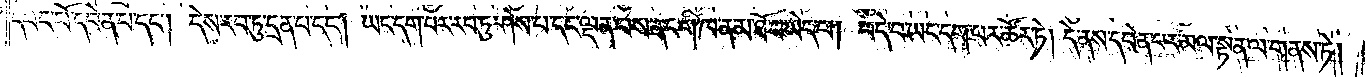དབང་པོ་དབེན་པ་དང༌། དེས་རབ་ཏུ་དྲན་པ་དང༌། ཡང་དག་པར་རབ་ཏུ་ཤེས་པ་དང་ལྡན་པས་ནང་གི་ཁ་ན་མ་ཐོ་བ་མེད་པ། བདེ་བ་ཡང་དག་པར་ཚོར་ཏེ། དེ་ནས་དབེན་པར་མལ་སྟན་ལ་གནས་ཏེ་
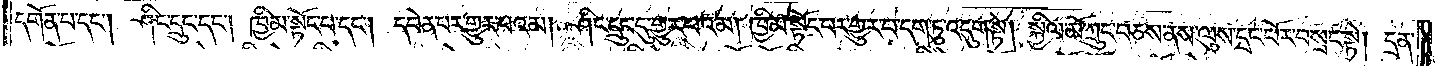དགོན་པ་དང༌། ཤིང་དྲུང་དང༌། ཁྱིམ་སྟོང་པ་དང༌། དབེན་པར་གྱུར་པའམ། ཤིང་དྲུང་དུ་གྱུར་པའམ། ཁྱིམ་སྟོང་པར་གྱུར་པ་དག་ཏུ་འདུག་སྟེ། སྐྱིལ་མོ་ཀྲུང་བཅས་ནས་ལུས་དྲང་པོར་བསྲང་སྟེ། དྲན་
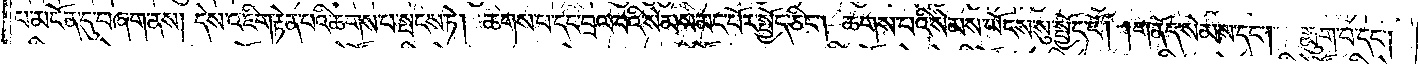པ་མངོན་དུ་བཞག་ནས། དེས་འཇིག་རྟེན་པའི་ཆགས་པ་སྤངས་ཏེ། ཆགས་པ་དང་བྲལ་བའི་སེམས་མང་པོར་སྤྱོད་ཅིང༌། ཆགས་པའི་སེམས་ཡོངས་སུ་སྤྱོད་དོ། །གནོད་སེམས་དང༌། རྨུག་པ་དང༌།
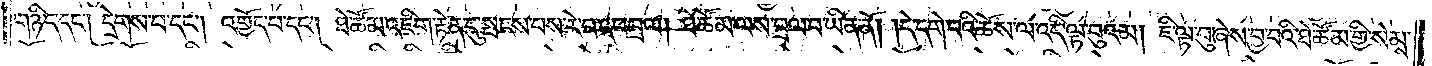གཉིད་དང༌། དྲེགས་པ་དང༌། འགྱོད་པ་དང༌། ཐེ་ཚོམ་འཇིག་རྟེན་དུ་སྤངས་པས་རེ་བ་དང་བྲལ། ཐེ་ཚོམ་ལས་བྲལ་བ་ཡིན་ནོ། །དེ་དགེ་བའི་ཆོས་ལ་འདི་ལྟ་བུའམ། ཇི་ལྟ་བུ་ཞེས་བྱ་བའི་ཐེ་ཚོམ་གྱི་སེམས་
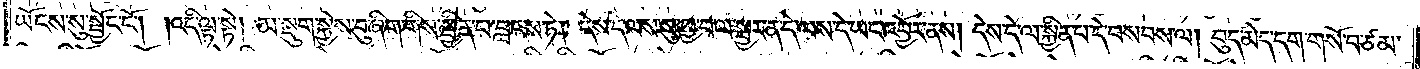ཡོངས་སུ་སྦྱོང་ངོ༌། །འདི་ལྟ་སྟེ། མ་སྡུག་སྐྱེས་བུ་ཞིག་གིས་སྦྱིན་པ་བླངས་ཏེ། དེས་དེ་ལས་སུ་བྱ་བ་ལ་སྦྱར་ན་དེ་ལས་དེ་ཡང་འབྱོར་ནས། དེས་དེ་ལ་སྐྱིན་པ་དེ་བསབས་ལ། བུད་མེད་དག་གསོ་བ་ཙམ་
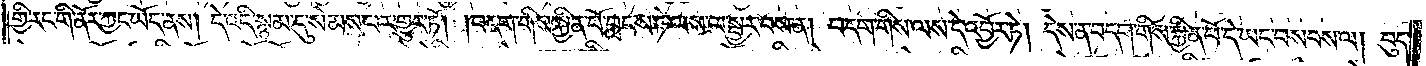གྱི་རང་གི་ནོར་ཀྱང་ཡོད་ནས། དེ་འདི་སྙམ་དུ་སེམས་པར་གྱུར་ཏོ། །བདག་གིས་སྐྱིན་པོ་བླངས་ཏེ་ལས་ལ་སྦྱར་བས་ན། བདག་གིས་ལས་དེ་འབྱོར་ཏེ། དེས་ན་བདག་གིས་སྐྱིན་པོ་དེ་ཡང་བསབས་ལ། བུད་
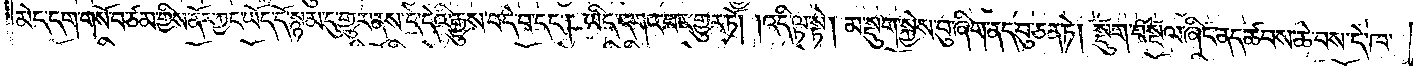མེད་དག་གསོ་བ་ཙམ་གྱིས་ནོར་ཀྱང་ཡོད་དོ་སྙམ་དུ་གྱུར་ནས་དེ་དེའི་རྒྱུས་བདེ་བ་དང༌། ཡིད་དགའ་བར་གྱུར་ཏོ། །འདི་ལྟ་སྟེ། མ་སྡུག་སྐྱེས་བུ་ཞིག་ནད་བུ་ཅན་ཏེ། སྡུག་བསྔལ་ཞིང་ནད་ཚབས་ཆེ་བས་དེ་ཁ་
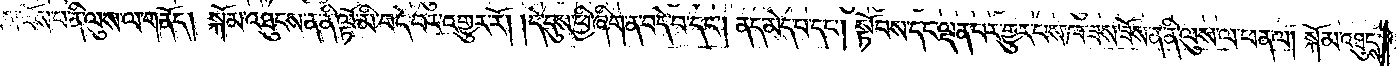ཟས་ཟོས་པ་ནི་ལུས་ལ་གནོད། སྐོམ་འཐུངས་ན་ནི་ལྟོ་མི་བདེ་བར་འགྱུར་རོ། །དེ་དུས་ཕྱི་ཞིག་ན་བདེ་བ་དང༌། ནད་མེད་པ་དང༌། སྟོབས་དང་ལྡན་པར་གྱུར་པས་ཁ་ཟས་ཟོས་ན་ནི་ལུས་ལ་ཕན་ལ། སྐོམ་འཐུངས་
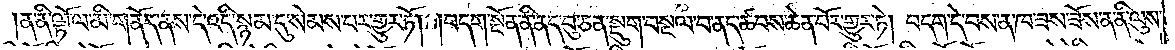ན་ནི་ལྟོ་ལ་མི་གནོད་ནས་དེ་འདི་སྙམ་དུ་སེམས་པར་གྱུར་ཏོ། །བདག་སྔོན་ནི་ནད་བུ་ཅན་སྡུག་བསྔལ་བ་ནད་ཚབས་ཆེན་པོར་གྱུར་ཏེ། བདག་དེ་བས་ན་ཁ་ཟས་ཟོས་ན་ནི་ལུས་
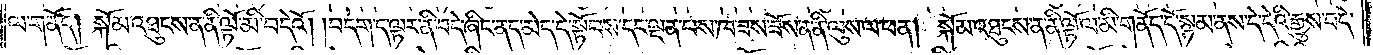ལ་གནོད། སྐོམ་འཐུངས་ན་ནི་ལྟོ་མི་བདེའོ། །བདག་ད་ལྟར་ནི་བདེ་ཞིང་ནད་མེད་དེ་སྟོབས་དང་ལྡན་པས་ཁ་ཟས་ཟོས་ན་ནི་ལུས་ལ་ཕན། སྐོམ་འཐུངས་ན་ནི་ལྟོ་ལ་མི་གནོད་དོ་སྙམ་ནས་དེ་དེའི་རྒྱུས་བདེ་
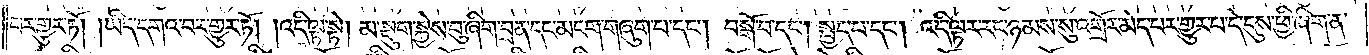བར་གྱུར་ཏོ། །ཡིད་དགའ་བར་ཀྱུར་ཏོ། །འདི་ལྟ་སྟེ། མ་སྡུག་སྐྱེས་བུ་ཞིག་བྲན་དང་མངག་གཞུག་པ་དང༌། བསྒོ་བ་དང༌། སྤྱད་པ་དང༌། འདི་ལྟར་རང་ཉམས་སུ་འགྲོར་མེད་པར་གྱུར་པ་དེ་དུས་ཕྱི་ཞིག་ན་
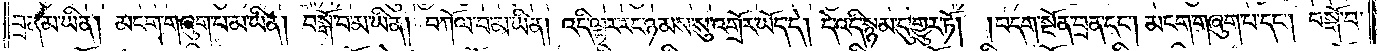བྲན་མ་ཡིན། མངག་གཞུག་པ་མ་ཡིན། བསྒོ་བ་མ་ཡིན། བཀོལ་བ་མ་ཡིན། འདི་ལྟར་རང་ཉམས་སུ་འགྲོར་ཡོད་དེ། དེ་འདི་སྙམ་དུ་གྱུར་ཏོ། །བདག་སྔོན་བྲན་དང༌། མངག་གཞུག་པ་དང༌། བསྒོ་བ་
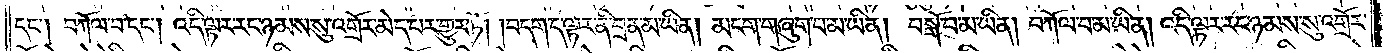དང༌། བཀོལ་བ་དང༌། འདི་ལྟར་རང་ཉམས་སུ་འགྲོར་མེད་པར་གྱུར་ཏོ། །བདག་ད་ལྟར་ནི་བྲན་མ་ཡིན། མངག་གཞུག་པ་མ་ཡིན། བསྒོ་བ་མ་ཡིན། བཀོལ་བ་མ་ཡིན། འདི་ལྟར་རང་ཉམས་སུ་འགྲོར་
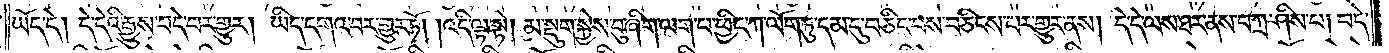ཡོད་དེ། དེ་དེའི་རྒྱུས་བདེ་བར་གྱུར། ཡིད་དགའ་བར་གྱུར་ཏོ། །འདི་ལྟ་སྟེ། མ་སྡུག་སྐྱེས་བུ་ཞིག་ལག་པ་ཕྱིང་ཀ་ལོག་ཏུ་དམ་དུ་བཅིང་བས་བཅིངས་པར་གྱུར་ནས། དེ་དེ་ལས་ཐར་ནས་བཀྲ་ཤིས་པ། བདེ་
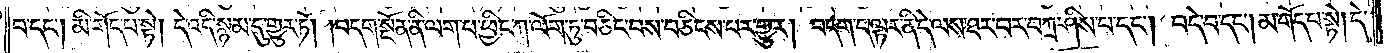བ་དང༌། མི་གོད་པ་སྟེ། དེ་འདི་སྙམ་དུ་གྱུར་ཏོ། །བདག་སྔོན་ནི་ལག་པ་ཕྱིང་ཀ་ལོག་ཏུ་བཅིང་བས་བཅིངས་པར་གྱུར། བདག་ད་ལྟར་ནི་དེ་ལས་ཐར་པར་བཀྲ་ཤིས་པ་དང༌། བདེ་བ་དང༌། མ་གོད་པ་སྟེ། དེ་
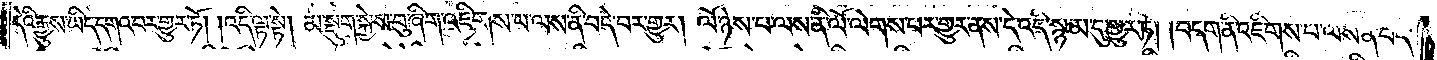དེའི་རྒྱུས་ཡིད་དགའ་བར་གྱུར་ཏོ། །འདི་ལྟ་སྟེ། མ་སྡུག་སྐྱེས་བུ་ཞིག་འཇིགས་པ་ལས་ནི་བདེ་བར་གྱུར། ལོ་ཉེས་པ་ལས་ནི་ལོ་ལེགས་པར་གྱུར་ནས་དེ་འདི་སྙམ་དུ་གྱུར་ཏེ། །བདག་ནི་འཇིགས་པ་ལས་ནི་བདེ་
